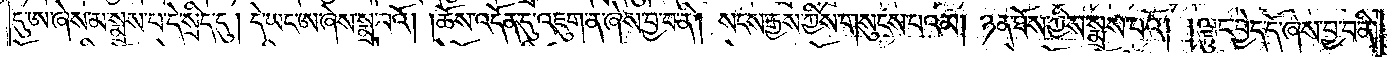དུ་ཨ་ཞེས་མ་སྨྲས་པ་དེ་སྲིད་དུ། དེ་ཡང་ཨ་ཞེས་སྨྲ་བའོ། །ཆོས་འདོན་དུ་འཇུག་ན་ཞེས་བྱ་བ་ནི། སངས་རྒྱས་ཀྱིས་གསུངས་པའམ། ཉན་ཐོས་ཀྱིས་སྨྲས་པའོ། །ལྟུང་བྱེད་དོ་ཞེས་བྱ་བ་ནི་
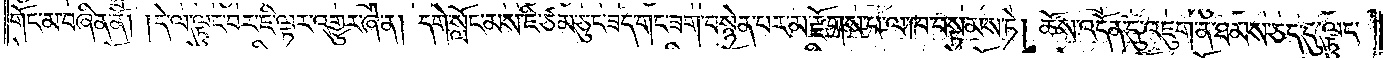གོང་མ་བཞིན་ནོ། །དེ་ལ་ལྟུང་བར་ཇི་ལྟར་འགྱུར་ཞེ་ན། དགེ་སློང་མས་ཇི་ཙམ་ཅུང་ཟད་གང་ཟག་བསྙེན་པར་མ་རྫོགས་པ་ལ་ཁ་བསྟམས་ཏེ། ཆོས་འདོན་དུ་འཇུག་ན་ཐམས་ཅད་དུ་ལྟུང་
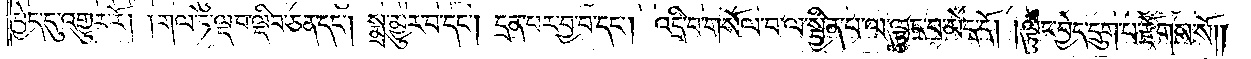བྱེད་དུ་འགྱུར་རོ། །གལ་ཏེ་ལྡབ་ལྡིབ་ཅན་དང༌། སྨྲ་མྱུར་བ་དང༌། དྲན་པར་བྱ་བ་དང༌། འདྲི་བ་གསོལ་བ་ལ་སྦྱིན་པ་ལ་ལྟུང་བ་མེད་དོ། །ལྟུང་བྱེད་དྲུག་པ་རྫོགས་སོ༎
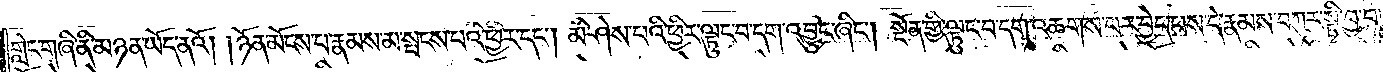གླེང་གཞི་ནི་མཉན་ཡོད་ནའོ། །ཉོན་མོངས་པ་རྣམས་མ་སྤངས་པའི་ཕྱིར་དང༌། མི་ཤེས་པའི་ཕྱིར་ལྟུང་བ་དག་འབྱུང་ཞིང༌། སྔོན་གྱི་ལྟུང་བ་དག་འཆགས་པར་བྱེད་པས་དེ་རྣམས་བཀུར་སྟི་བྱ་བ་
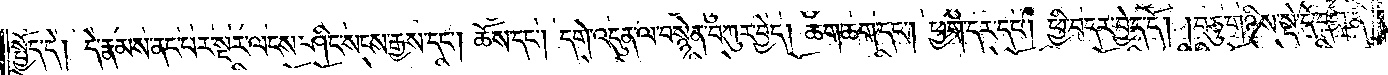སྤྱོད་དེ། དེ་རྣམས་ནང་པར་སྔར་ལངས་ཤིང་སངས་རྒྱས་དང༌། ཆོས་དང༌། དགེ་འདུན་ལ་བསྙེན་བཀུར་བྱེད། ཆག་ཆག་དང༌། ཕྱག་དར་དང༌། ཕྱི་བདར་བྱེད་དོ། །བཅུ་གཉིས་སྡེ་དེ་དག་ནི་།
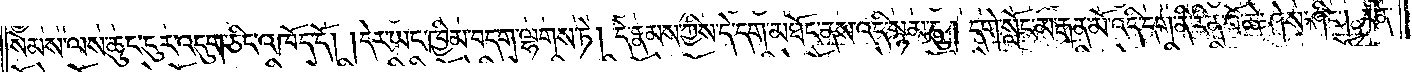སེམས་ལས་ཆུང་ངུར་འདུག་ཅིང་འཁོད་དོ། །དེར་ཡང་ཁྱིམ་བདག་ལྷགས་ཏེ། དེ་རྣམས་ཀྱིས་དེ་དག་མཐོང་ནས་འདི་སྙམ་དུ། དགེ་སློང་མ་རྒན་མོ་འདི་དག་ནི་རིན་པོ་ཆེ་ཤེས་ཤིང༌། རིན་
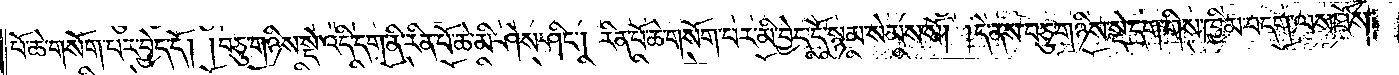པོ་ཆེ་གསོག་པར་བྱེད་དོ། །བཅུ་གཉིས་སྡེ་འདི་དག་ནི་རིན་པོ་ཆེ་མི་ཤེས་ཤིང༌། རིན་པོ་ཆེ་གསོག་པར་མི་བྱེད་དོ་སྙམ་སེམས་སོ། །དེ་ནས་བཅུ་གཉིས་སྡེ་དག་གིས་ཁྱིམ་བདག་ལས་ཐོས་
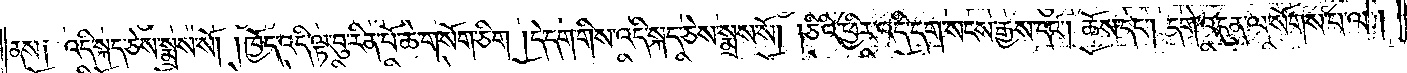ནས༑ འདི་སྐད་ཅེས་སྨྲས་སོ། །ཁྱོད་འདི་ལྟ་བུ་རིན་པོ་ཆེ་གསོག་ཅིག །དེ་དག་གིས་འདི་སྐད་ཅེས་སྨྲས་སོ། །ཅིའི་ཕྱིར་འདི་དག་སངས་རྒྱས་དང༌། ཆོས་དང༌། དགེ་འདུན་ལ་སོགས་པ་ལ་།
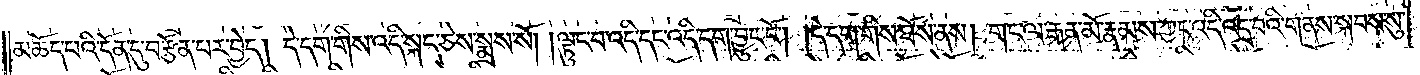མཆོད་པའི་དོན་དུ་བརྩོན་པར་བྱེད། དེ་དག་གིས་འདི་སྐད་ཅེས་སྨྲས་སོ། །ལྟུང་བ་འདི་དང་འདི་དག་བྱུང་ངོ༌། །དེ་དག་གིས་ཐོས་ནས། གང་ལ་རྒན་མོ་རྣམས་ཀྱང་འདི་འདྲ་བའི་གནས་སྐབས་སུ་
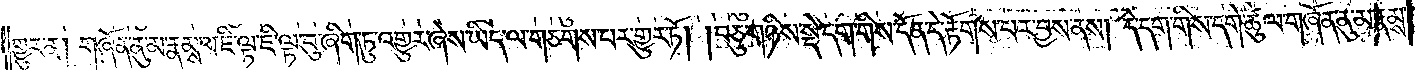གྱུར་ན། གཞོན་ནུ་མ་རྣམས་ལ་ཇི་ལྟ་ཇི་ལྟ་བུ་ཞིག་ཏུ་འགྱུར་ཞེས་ཡིད་ལ་གཅགས་པར་གྱུར་ཏོ། །བཅུ་གཉིས་སྡེ་དག་གིས་དོན་དེ་རྟོགས་པར་བྱས་ནས། དེ་དག་གིས་དགེ་ཚུལ་གཞོན་ནུ་མ་རྣམས་
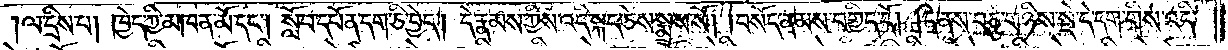ལ་དྲིས་པ། ཁྱེད་ཀྱི་མཁན་མོ་དང༌། སློབ་དཔོན་དག་ཅི་བྱེད། དེ་རྣམས་ཀྱིས་འདི་སྐད་ཅེས་སྨྲས་སོ། །བསོད་ནམས་བགྱིད་དོ། །དེ་ནས་བཅུ་གཉིས་སྡེ་དེ་དག་གིས་འདི་
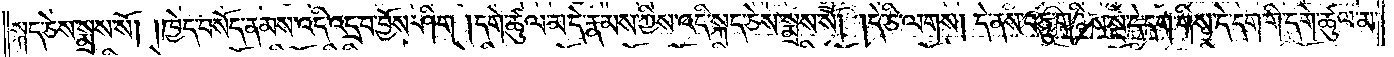སྐད་ཅེས་སྨྲས་སོ། །ཁྱེད་བསོད་ནམས་འདི་འདྲ་བ་བྱོས་ཤིག །དགེ་ཚུལ་མ་དེ་རྣམས་ཀྱིས་འདི་སྐད་ཅེས་སྨྲས་སོ། །དེ་ཅི་ལགས། དེ་ནས་བཅུ་གཉིས་སྡེ་དེ་དག་གིས་དེ་དག་གི་དགེ་ཚུལ་མ་
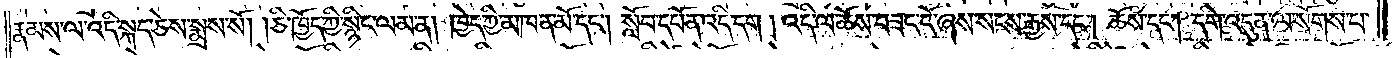རྣམས་ལ་འདི་སྐད་ཅེས་སྨྲས་སོ། །ཅི་ཁྱོད་ཀྱི་སྙིང་ལམ་ན། ཁྱེད་ཀྱི་མཁན་མོ་དང༌། སློབ་དཔོན་འདི་དག །འདི་ལ་ཆོས་བཟང་ངོ་ཞེས་སངས་རྒྱས་དང༌། ཆོས་དང༌། དགེ་འདུན་ལ་སོགས་པ་
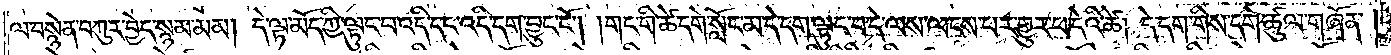ལ་བསྙེན་བཀུར་བྱེད་སྙམ་མམ། དེ་ལྟ་མོད་ཀྱི་ལྟུང་བ་འདི་དང་འདི་དག་བྱུང་ངོ༌། །གང་གི་ཚེ་དགེ་སློང་མ་དེ་དག་ལྟུང་བ་དེ་ལས་ལངས་པར་གྱུར་པ་དེའི་ཚེ། དེ་དག་གིས་དགེ་ཚུལ་གཞོན་
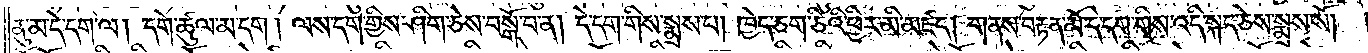ནུ་མ་དེ་དག་ལ། དགེ་ཚུལ་མ་དག །ལས་དག་གྱིས་ཤིག་ཅེས་བསྒོ་བ་ན། དེ་དག་གིས་སྨྲས་པ། ཁྱེད་ཅག་ཅིའི་ཕྱིར་མི་མཛད། གནས་བརྟན་མོ་དེ་དག་གིས་འདི་སྐད་ཅེས་སྨྲས་སོ། །
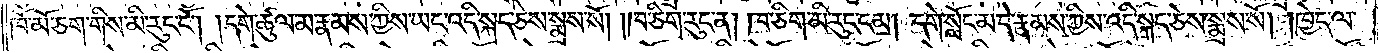ཁོ་མོ་ཅག་གིས་མི་རུང་ངོ༌། །དགེ་ཚུལ་མ་རྣམས་ཀྱིས་ཡང་འདི་སྐད་ཅེས་སྨྲས་སོ། །ཁ་ཅིག་རུང་ན། ཁ་ཅིག་མི་རུང་ངམ། དགེ་སློང་མ་དེ་རྣམས་ཀྱིས་འདི་སྐད་ཅེས་སྨྲས་སོ། །ཁྱེད་ལ་
